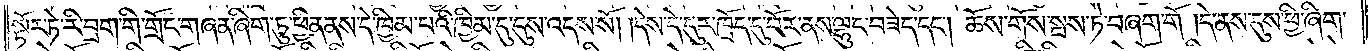སྟོར་ཏེ་རི་བྲག་གི་གྲོང་གཞན་ཞིག་ཏུ་ཕྱིན་ནས་དེ་ཁྱིམ་པའི་ཁྱིམ་དུ་དུས་འདས་སོ། །དེས་དེ་དུར་ཁྲོད་དུ་བོར་ནས་ལྷུང་བཟེད་དང༌། ཆོས་གོས་སྦས་ཏེ་བཞག་གོ །དེ་ནས་དུས་ཕྱི་ཞིག་
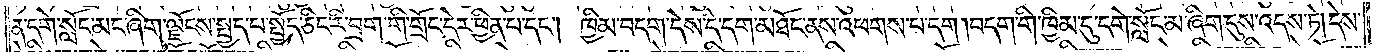ན་དགེ་སློང་མང་ཞིག་ལྗོངས་སྤྱད་པ་སྤྱོད་ཅིང་རི་བྲག་གི་གྲོང་དེར་ཕྱིན་པ་དང༌། ཁྱིམ་བདག་དེས་དེ་དག་མཐོང་ནས་འཕགས་པ་དག །བདག་གི་ཁྱིམ་དུ་དགེ་སློང་མ་ཞིག་དུས་འདས་ཏེ། དེས་
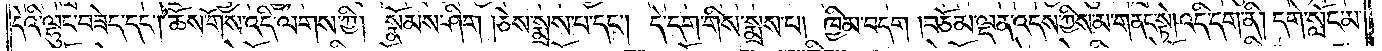དེའི་ལྷུང་བཟེད་དང༌། ཆོས་གོས་འདི་ལགས་ཀྱི། སྣོམས་ཤིག །ཅེས་སྨྲས་པ་དང༌། དེ་དག་གིས་སྨྲས་པ། ཁྱིམ་བདག །བཅོམ་ལྡན་འདས་ཀྱིས་མ་གནང་སྟེ། འདི་དག་ནི། དགེ་སློང་མ་
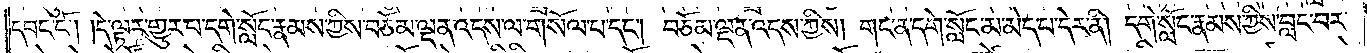དབང་ངོ༌། །དེ་ལྟར་གྱུར་པ་དགེ་སློང་རྣམས་ཀྱིས་བཅོམ་ལྡན་འདས་ལ་གསོལ་པ་དང༌། བཅོམ་ལྡན་འདས་ཀྱིས། གང་ན་དགེ་སློང་མ་མེད་པ་དེར་ནི། དགེ་སློང་རྣམས་ཀྱིས་བླང་བར་
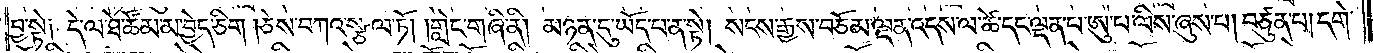བྱ་སྟེ༑ དེ་ལ་ཐེ་ཚོམ་མ་བྱེད་ཅིག །ཅེས་བཀའ་སྩལ་ཏོ། །གླེང་གཞི་ནི། མཉན་དུ་ཡོད་པ་ན་སྟེ། སངས་རྒྱས་བཅོམ་ལྡན་འདས་ལ་ཚེ་དང་ལྡན་པ་ཨུ་པ་ལིས་ཞུས་པ། བཙུན་པ། དགེ་
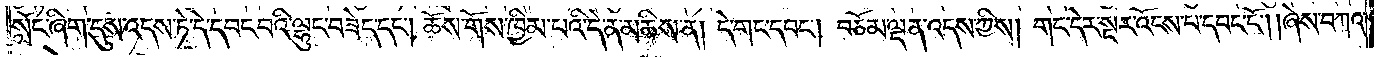སློང་ཞིག་དུས་འདས་ཏེ་དེ་དབང་བའི་ལྷུང་བཟེད་དང༌། ཆོས་གོས་ཁྱིམ་པའི་དེ་ན་མཆིས་ན། དེ་གང་དབང༌། བཅོམ་ལྡན་འདས་ཀྱིས། གང་དེར་སྔར་འོངས་པ་དབང་ངོ༌། །ཞེས་བཀའ་
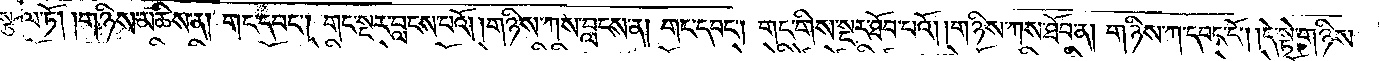སྩལ་ཏོ། །གཉིས་མཆིས་ན། གང་དབང༌། གང་སྔར་བླངས་པའི། གཉིས་ཀས་བླངས་ན། གང་དབང༌། གང་གིས་སྔར་ཐོབ་པའོ། །གཉིས་ཀས་ཐོབ་ན། གཉིས་ཀ་དབང་ངོ༌། །དེ་སྟེ་གཉིས་
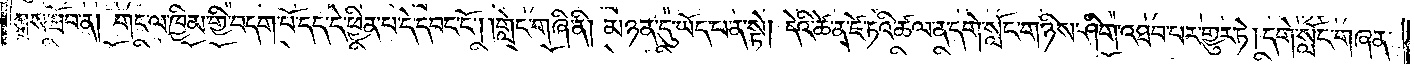ཀས་ཐོབ་ན། གང་ལ་ཁྱིམ་གྱི་བདག་པོ་དད་དེ་ཕྱིན་པ་དེ་དབང་ངོ༌། །གླེང་གཞི་ནི། མཉན་དུ་ཡོད་པ་ན་སྟེ། དེའི་ཚེ་ན་ཛེ་ཏའི་ཚལ་ན་དགེ་སློང་གཉིས་ཤིག་འཐབ་པར་གྱུར་ཏེ། དགེ་སློང་གཞན་
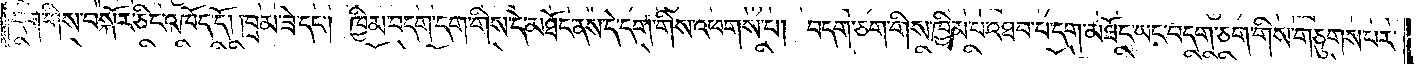དག་གིས་བསྐོར་ཅིང་འཁོད་དོ། །བྲམ་ཟེ་དང༌། ཁྱིམ་བདག་དག་གིས་དེ་མཐོང་ནས་དེ་དག་གིས་འཕགས་པ། བདག་ཅག་གིས་ཁྱིམ་པ་འཐབ་པ་དག་མཐོང་ཡང་བདག་ཅག་གིས་གཅུགས་པར་
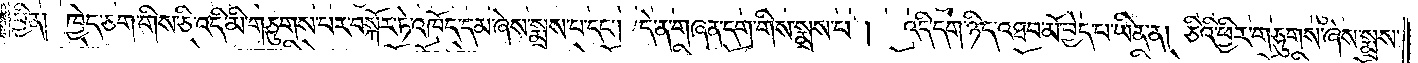བྱིན། ཁྱེད་ཅག་གིས་ཅི་འདི་མི་གཅུགས་པར་བསྐོར་ཏེ་འཁོད་དམ་ཞེས་སྨྲས་པ་དང༌། དེ་ན་གཞན་དག་གིས་སྨྲས་པ། འདི་དག་ཉིད་འཐབ་མོ་བྱེད་པ་ཡིན་ན། ཅིའི་ཕྱིར་གཅུགས་ཞེས་སྨྲས་
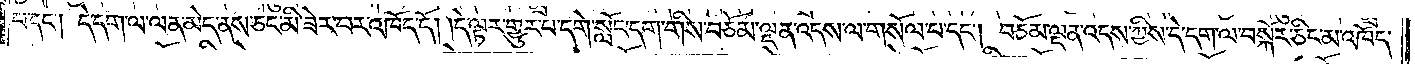པ་དང༌། དེ་དག་ལ་ལན་མེད་ནས་ཅང་མི་ཟེར་བར་འཁོད་དོ། །དེ་ལྟར་གྱུར་པ་དགེ་སློང་དག་གིས་བཅོམ་ལྡན་འདས་ལ་གསོལ་པ་དང༌། བཅོམ་ལྡན་འདས་ཀྱིས་དེ་དག་ལ་བསྐོར་ཅིང་མ་འཁོད་
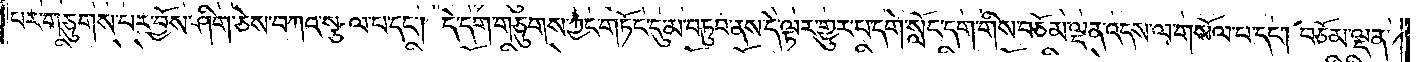པར་གཅུགས་པར་བྱོས་ཤིག་ཅེས་བཀའ་སྩལ་པ་དང༌། དེ་དག་གཅུགས་ཀྱང་གཏོང་དུ་མ་བཏུབ་ནས་དེ་ལྟར་གྱུར་པ་དགེ་སློང་དག་གིས་བཅོམ་ལྡན་འདས་ལ་གསོལ་པ་དང༌། བཅོམ་ལྡན་
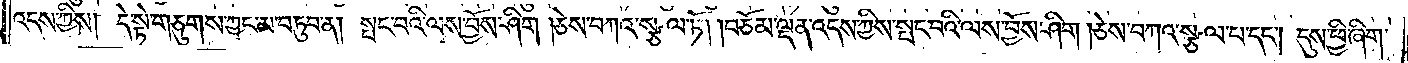འདས་ཀྱིས། དེ་སྟེ་གཅུགས་ཀྱང་མ་བཏུབ་ན། སྤང་བའི་ལས་བྱོས་ཤིག །ཅེས་བཀའ་སྩལ་ཏོ། །བཅོམ་ལྡན་འདས་ཀྱིས་སྤང་བའི་ལས་བྱོས་ཤིག །ཅེས་བཀའ་སྩལ་པ་དང༌། དུས་ཕྱི་ཞིག་
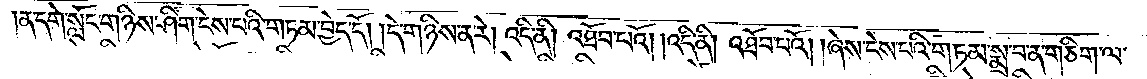ན་དགེ་སློང་གཉིས་ཤིག་ངེས་པའི་གཏམ་བྱེད་དོ། །དེ་གཉིས་ན་རེ། འདི་ནི། འཐོབ་པའོ། །འདི་ནི། འཐོབ་པའོ། །ཞེས་ངེས་པའི་གཏམ་སྨྲ་བ་ན་གཅིག་ལ་
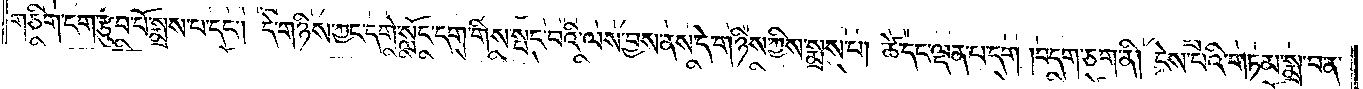གཅིག་ངག་རྩུབ་པོ་སྨྲས་པ་དང༌། དེ་གཉིས་ཀྱང་དགེ་སློང་དག་གིས་སྤང་བའི་ལས་བྱས་ནས་དེ་གཉིས་ཀྱིས་སྨྲས་པ། ཚེ་དང་ལྡན་པ་དག །བདག་ཅག་ནི། ངེས་པའི་གཏམ་སྨྲ་བ་ན་
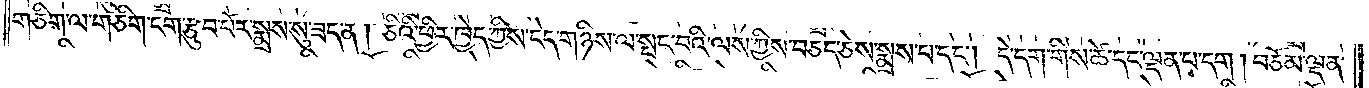གཅིག་ལ་གཅིག་ངག་རྩུབ་པོར་སྨྲས་སུ་ཟད་ན། ཅིའི་ཕྱིར་ཁྱེད་ཀྱིས་ངེད་གཉིས་ལ་སྤང་བའི་ལས་ཀྱིས་བཅད་ཅེས་སྨྲས་པ་དང༌། དེ་དག་གིས་ཚེ་དང་ལྡན་པ་དག །བཅོམ་ལྡན་
